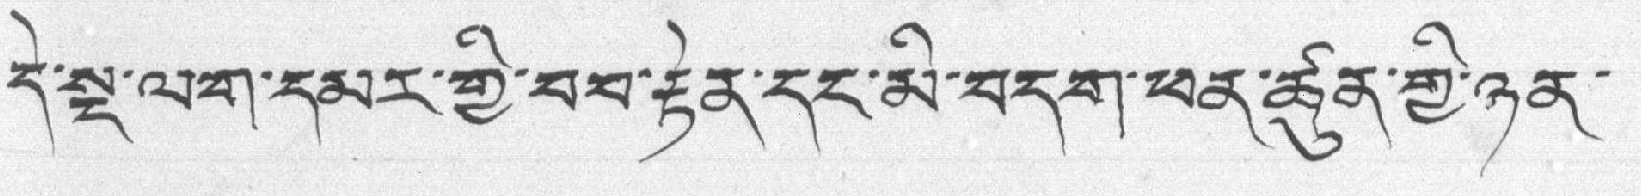དེ་སྔ་ལག་དམར་གྱི་བབ་རྟེན་དང་མི་བདག་ཕན་ཚུན་གྱི་ཉན་
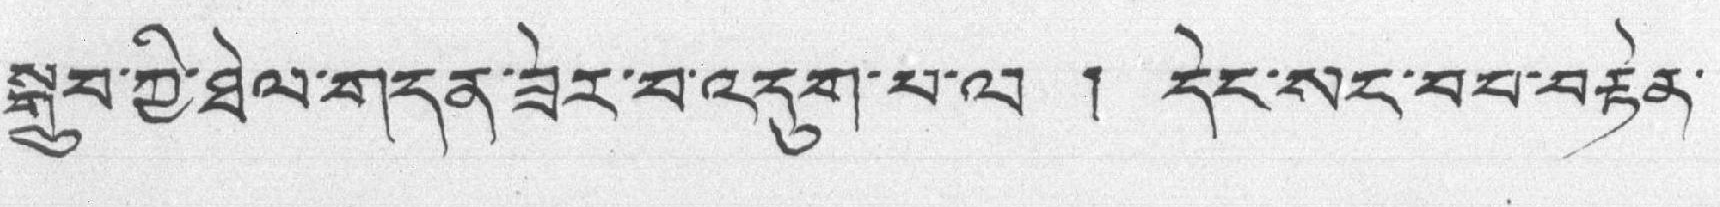སྒྲུབ་ཀྱི་ཐེལ་གདན་ཟེར་བ་འདུག་པ་ལ ། དེང་སང་བབ་བརྟེན་
